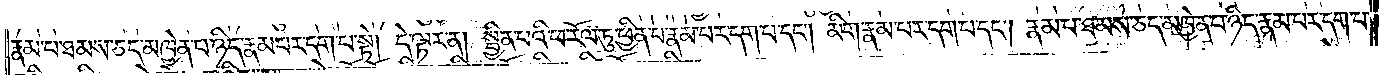རྣམ་པ་ཐམས་ཅད་མཁྱེན་པ་ཉིད་རྣམ་པར་དག་པ་སྟེ། དེ་ལྟར་ན། སྦྱིན་པའི་ཕ་རོལ་ཏུ་ཕྱིན་པ་རྣམ་པར་དག་པ་དང༌། མིག་རྣམ་པར་དག་པ་དང༌། རྣམ་པ་ཐམས་ཅད་མཁྱེན་པ་ཉིད་རྣམ་པར་དག་པ་
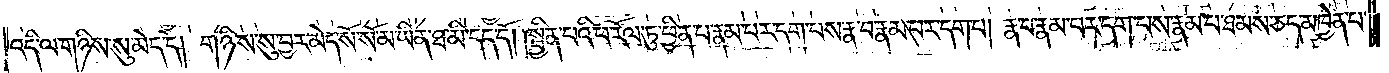འདི་ལ་གཉིས་སུ་མེད་དེ། གཉིས་སུ་བྱར་མེད་སོ་སོ་མ་ཡིན་ཐ་མི་དད་དོ། །སྦྱིན་པའི་ཕ་རོལ་ཏུ་ཕྱིན་པ་རྣམ་པར་དག་པས་རྣ་བ་རྣམ་པར་དག་པ། རྣ་བ་རྣམ་པར་དག་པས་རྣམ་པ་ཐམས་ཅད་མཁྱེན་པ་
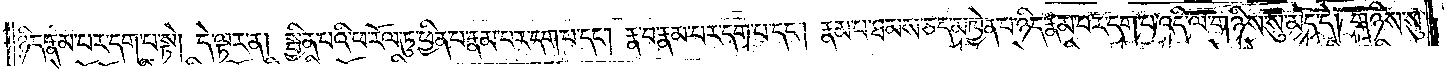ཉིད་རྣམ་པར་དག་པ་སྟེ། དེ་ལྟར་ན། སྦྱིན་པའི་ཕ་རོལ་ཏུ་ཕྱིན་པ་རྣམ་པར་དག་པ་དང༌། རྣ་བ་རྣམ་པར་དག་པ་དང༌། རྣམ་པ་ཐམས་ཅད་མཁྱེན་པ་ཉིད་རྣམ་པར་དག་པ་འདི་ལ་གཉིས་སུ་མེད་དེ། གཉིས་སུ་
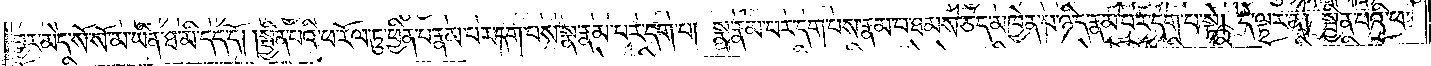བྱར་མེད་སོ་སོ་མ་ཡིན་ཐ་མི་དད་དོ། །སྦྱིན་པའི་ཕ་རོལ་ཏུ་ཕྱིན་པ་རྣམ་པར་དག་པས་སྣ་རྣམ་པར་དག་པ། སྣ་རྣམ་པར་དག་པས་རྣམ་པ་ཐམས་ཅད་མཁྱེན་པ་ཉིད་རྣམ་པར་དག་པ་སྟེ། དེ་ལྟར་ན། སྦྱིན་པའི་ཕ་
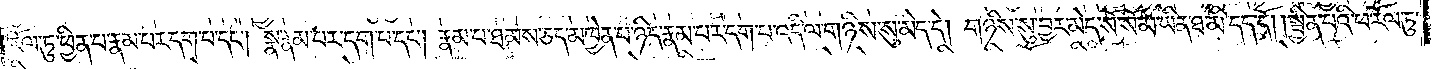རོལ་ཏུ་ཕྱིན་པ་རྣམ་པར་དག་པ་དང༌། སྣ་རྣམ་པར་དག་པ་དང༌། རྣམ་པ་ཐམས་ཅད་མཁྱེན་པ་ཉིད་རྣམ་པར་དག་པ་འདི་ལ་གཉིས་སུ་མེད་དེ། གཉིས་སུ་བྱར་མེད་སོ་སོ་མ་ཡིན་ཐ་མི་དད་དོ། །སྦྱིན་པའི་ཕ་རོལ་ཏུ་
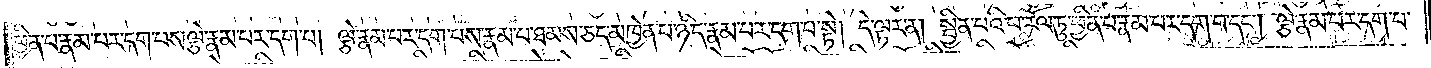ཕྱིན་པ་རྣམ་པར་དག་པས་ལྕེ་རྣམ་པར་དག་པ། ལྕེ་རྣམ་པར་དག་པས་རྣམ་པ་ཐམས་ཅད་མཁྱེན་པ་ཉིད་རྣམ་པར་དག་པ་སྟེ། དེ་ལྟར་ན། སྦྱིན་པའི་ཕ་རོལ་ཏུ་ཕྱིན་པ་རྣམ་པར་དག་པ་དང༌། ལྕེ་རྣམ་པར་དག་པ་
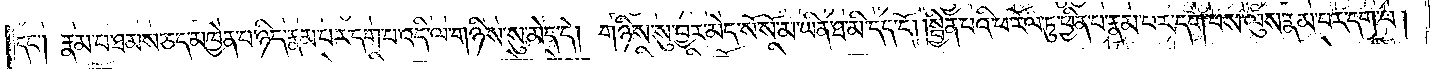དང༌། རྣམ་པ་ཐམས་ཅད་མཁྱེན་པ་ཉིད་རྣམ་པར་དག་པ་འདི་ལ་གཉིས་སུ་མེད་དེ། གཉིས་སུ་བྱར་མེད་སོ་སོ་མ་ཡིན་ཐ་མི་དད་དོ། །སྦྱིན་པའི་ཕ་རོལ་ཏུ་ཕྱིན་པ་རྣམ་པར་དག་པས་ལུས་རྣམ་པར་དག་པ།
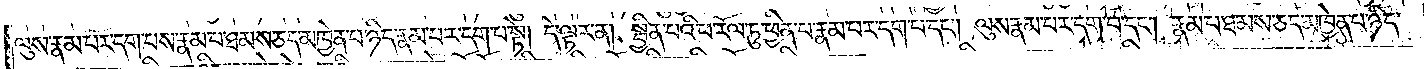ལུས་རྣམ་པར་དག་པས་རྣམ་པ་ཐམས་ཅད་མཁྱེན་པ་ཉིད་རྣམ་པར་དག་པ་སྟེ། དེ་ལྟར་ན། སྦྱིན་པའི་ཕ་རོལ་ཏུ་ཕྱིན་པ་རྣམ་པར་དག་པ་དང༌། ལུས་རྣམ་པར་དག་པ་དང༌། རྣམ་པ་ཐམས་ཅད་མཁྱེན་པ་ཉིད་
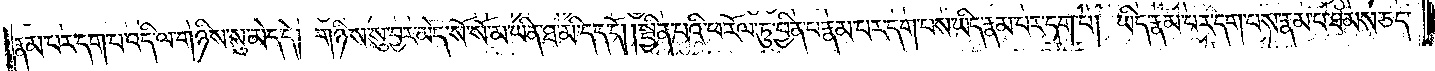རྣམ་པར་དག་པ་འདི་ལ་གཉིས་སུ་མེད་དེ། གཉིས་སུ་བྱར་མེད་སོ་སོ་མ་ཡིན་ཐ་མི་དད་དོ། །སྦྱིན་པའི་ཕ་རོལ་ཏུ་ཕྱིན་པ་རྣམ་པར་དག་པས་ཡིད་རྣམ་པར་དག་པ། ཡིད་རྣམ་པར་དག་པས་རྣམ་པ་ཐམས་ཅད་
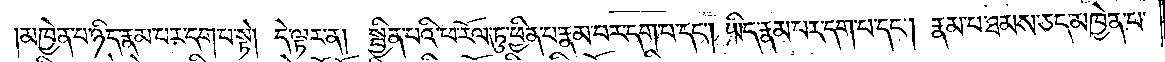མཁྱེན་པ་ཉིད་རྣམ་པར་དག་པ་སྟེ། དེ་ལྟར་ན། སྦྱིན་པའི་ཕ་རོལ་ཏུ་ཕྱིན་པ་རྣམ་པར་དག་པ་དང༌། ཡིད་རྣམ་པར་དག་པ་དང༌། རྣམ་པ་ཐམས་ཅད་མཁྱེན་པ་
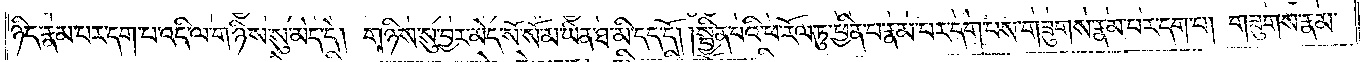ཉིད་རྣམ་པར་དག་པ་འདི་ལ་གཉིས་སུ་མེད་དེ། གཉིས་སུ་བྱར་མེད་སོ་སོ་མ་ཡིན་ཐ་མི་དད་དོ། །སྦྱིན་པའི་ཕ་རོལ་ཏུ་ཕྱིན་པ་རྣམ་པར་དག་པས་གཟུགས་རྣམ་པར་དག་པ། གཟུགས་རྣམ་
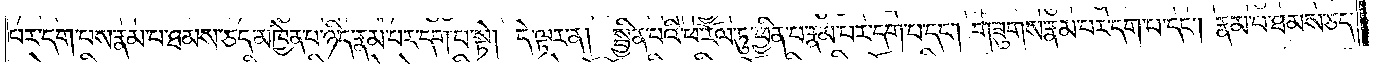པར་དག་པས་རྣམ་པ་ཐམས་ཅད་མཁྱེན་པ་ཉིད་རྣམ་པར་དག་པ་སྟེ། དེ་ལྟར་ན། སྦྱིན་པའི་ཕ་རོལ་ཏུ་ཕྱིན་པ་རྣམ་པར་དག་པ་དང༌། གཟུགས་རྣམ་པར་དག་པ་དང༌། རྣམ་པ་ཐམས་ཅད་
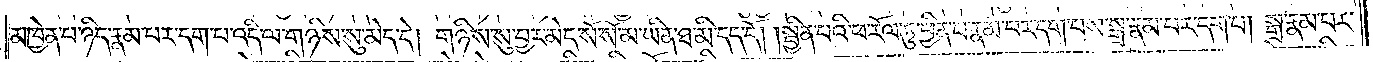མཁྱེན་པ་ཉིད་རྣམ་པར་དག་པ་འདི་ལ་གཉིས་སུ་མེད་དེ། གཉིས་སུ་བྱར་མེད་སོ་སོ་མ་ཡིན་ཐ་མི་དད་དོ། །སྦྱིན་པའི་ཕ་རོལ་ཏུ་ཕྱིན་པ་རྣམ་པར་དག་པས་སྒྲ་རྣམ་པར་དག་པ། སྒྲ་རྣམ་པར་
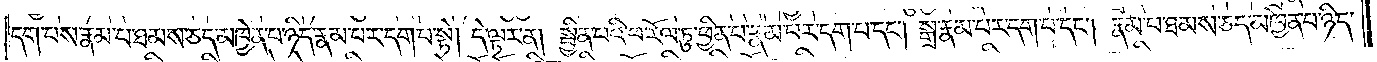དག་པས་རྣམ་པ་ཐམས་ཅད་མཁྱེན་པ་ཉིད་རྣམ་པར་དག་པ་སྟེ། དེ་ལྟར་ན། སྦྱིན་པའི་ཕ་རོལ་ཏུ་ཕྱིན་པ་རྣམ་པར་དག་པ་དང༌། སྒྲ་རྣམ་པར་དག་པ་དང༌། རྣམ་པ་ཐམས་ཅད་མཁྱེན་པ་ཉིད་
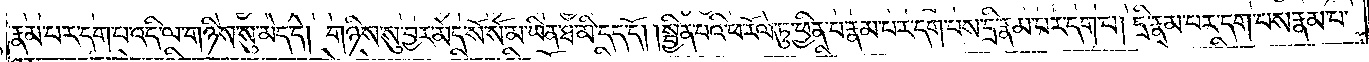རྣམ་པར་དག་པ་འདི་ལ་གཉིས་སུ་མེད་དེ། གཉིས་སུ་བྱར་མེད་སོ་སོ་མ་ཡིན་ཐ་མི་དད་དོ། །སྦྱིན་པའི་ཕ་རོལ་ཏུ་ཕྱིན་པ་རྣམ་པར་དག་པས་དྲི་རྣམ་པར་དག་པ། དྲི་རྣམ་པར་དག་པས་རྣམ་པ་
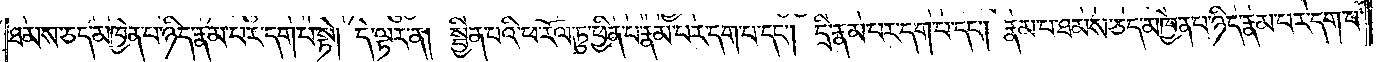ཐམས་ཅད་མཁྱེན་པ་ཉིད་རྣམ་པར་དག་པ་སྟེ། དེ་ལྟར་ན། སྦྱིན་པའི་ཕ་རོལ་ཏུ་ཕྱིན་པ་རྣམ་པར་དག་པ་དང༌། དྲི་རྣམ་པར་དག་པ་དང༌། རྣམ་པ་ཐམས་ཅད་མཁྱེན་པ་ཉིད་རྣམ་པར་དག་པ་
